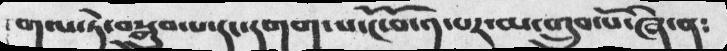གལ་ཏེ་བསྒྲུབ་པ་དང་དགག་པ་ངོ་བོ་༡་པར་མ་གྲུབ་པོ་ཞེ་ན༴
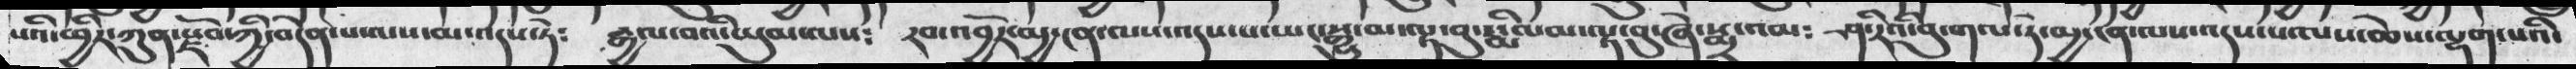པའི་ཕྱིར་ཀུན་སྫོབ་ཀྱི་བདེན་པ་ལས་མ་འདས་ཏེ༴ རྒྱལ་བའི་ཡུམ་ལས༴ རབ་འབྱོར་མྱ་ངན་ལས་འདས་པ་ཡང་སྒྱུ་མ་ལྟ་བུ་ཞེ་སྨྲར་འམ༴  ཤ་རིའི་བུ་གལ་ཏེ་མྱ་ངན་ལས་འདས་པ་ལས་ཆེས་ལྷག་པའི་
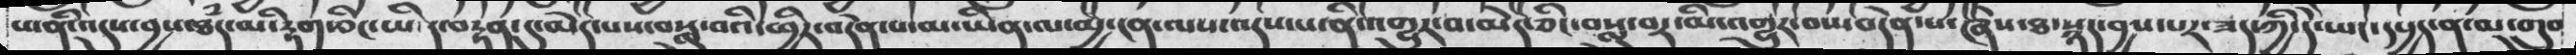པ་ནི་འདུས་བྱས་ཐཾད་མི་རྟག་ཅིང་ཡིད་བརྟན་དུ་མེད་པས་བསླུ་བའི་ཕྱིར་བདེན་པ་མ་ཡིན་ལ་མྱ་ངན་ལས་འདས་པ་ནི་འགྱུར་བ་མེད་ཅིང་བསླུ་བར་མི་འགྱུར་བས་བདེན་པ་ཞེས་ཐ་སྙད་བྱས་པར་ཟད་ཀྱི་དེ་ཡང་དཔྱད་ན་མ་གྲུབ
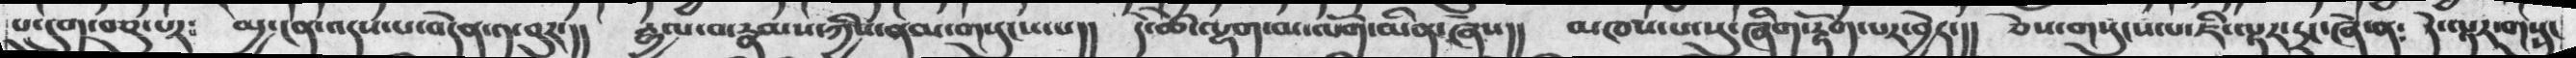པ་དྲུག་བཅུ་པར༴  མྱ་ངན་འདས་པ་བདེན་༡་བུར་།།  རྒྱལ་བ་རྣམས་ཀྱིས་ནམ་གསུངས་པ།།  དེ་ཚེ་ལྷག་མ་ལོག་མིན་ཞེས།།   མཁས་པ་སུ་ཞིག་རྟོག་པར་བྱེད་།།  ཅེས་གསུངས་པ་ཇི་ལྟར་དྲང་ཞེ་ན༴  དེ་ལྟར་གསུང
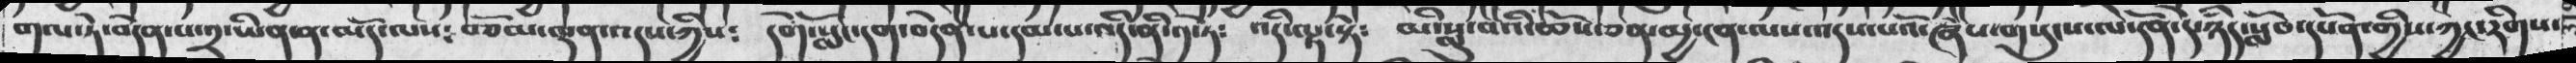གལ་ཏེ་བདེན་པ་༢་ཡིན་ན་མདོ་ལས༴    བཅོམ་ལྡན་འདས་ཀྱིས༴     དགེ་སློང་དག་བདེན་པ་དམ་པ་འདི་ནི་༡ཏེ༴  འདི་ལྟ་སྟེ༴   མི་སླུ་བའི་ཆོས་ཅན་མྱ་ངན་ལས་འདས་པའོ་ཞེས་གསུངས་ལ་དོན་དེ་ཉིད་སློབ་དཔོན་གྱིས་ཀྱང་རིགས་
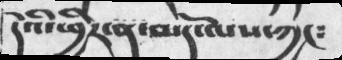དེའིི་ཕྱིར་ན་མདོ་ལས་ཀྱང༴
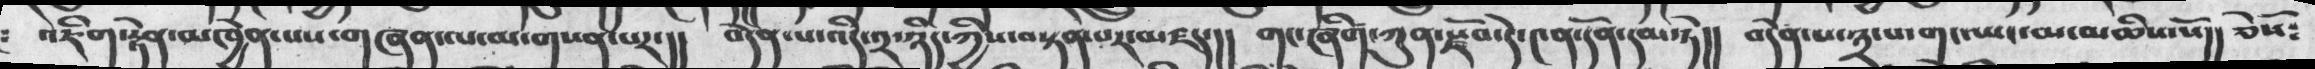འཇིག་རྟེན་མཁྱེན་པས་གཞན་ལ་མ་གསན་པར་།།  བདེན་པ་འདི་༢་ཉིད་ཀྱིས་བསྟན་པར་མཛད་།།    གང་ཞིག་ཀུན་སྫོབ་དེ་༤ན་དོན་དམ་ཏེ།།   བདེན་པ་༣་པ་གང་ཡང་མ་མཆིས་སོ།།  ཅེསོ༴
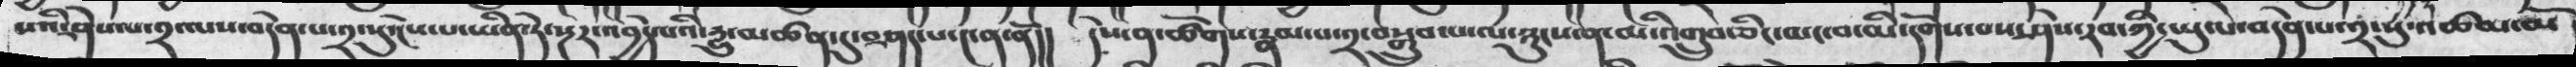པའི་ཤེས་པ་ལ་༢་ལས་བདེན་པ་༢་སུ་ངེས་པ་ཡིན་ཏེ་སྔར་འབྱེད་པའི་དྱུ་མཚན་དུ་བཤད་པ་༤ན་ནོ།།  དེ་ན་ཚོགས་རྣམ་པ་༢་བསྒྲུབ་པ་ལ་ཉུངས་ན་མི་འགྲུབ་ཅིང་མང་བ་མི་དགོས་པས་ཤེས་རབ་ཀྱི་ཡུལ་བདེན་པ་༢་སུ་འཚམ་མོ
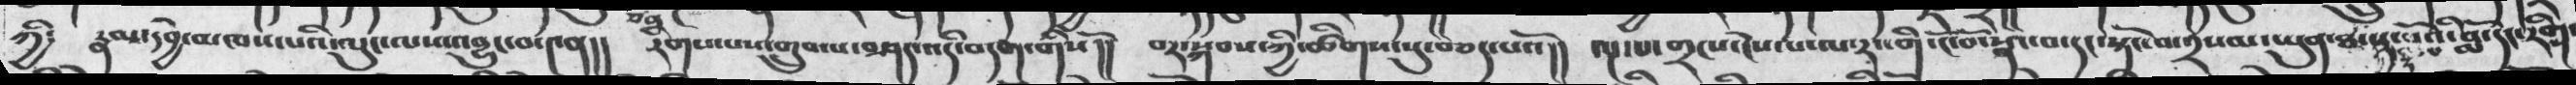ཀྱི༴  རྣམ་དབྱེ་མཁས་པའི་ལུང་ལས་འབྱུང་བ་༤ན།། རིགས་པས་འགྲུབ་པ་བཤད་འདི་བདག་གིསོ།།  བར་སྐབས་ཀྱི་ཚིགས་སུ་བཅད་པའོ།།  ལྔ་པ་གྲངས་ངེས་པ་ལ་རང་གི་ངོ་བོ་སྣང་བ་དང་སྟོང་བ་༢སམ་ཡུན་ཐ་སྡ་པོའི་བློ་དང་རིག་
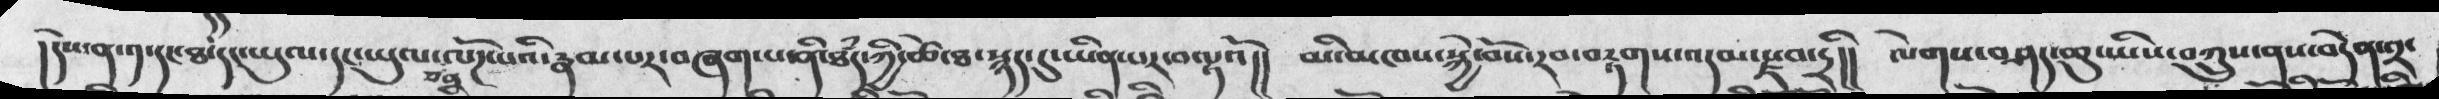།དེས་ན་༡་དང་ཐ་དང་ཡུལ་དང་ཡུལ་ཅན་ལོཌ་པའི་རྣམ་པར་བཞག་པ་ནི་ཐཾད་ཀྱི་ཚེ་ཐ་སྙད་དུ་ཡིན་པར་བལྟའོ།།   མི་མཁས་སྐྱེ་བོས་རབ་བརྟགས་འདམ་རྫབ་དྲི།།  ལེགས་བཤད་ཆུ་ཡིས་བཀྲུས་ནས་བདེན་༢་
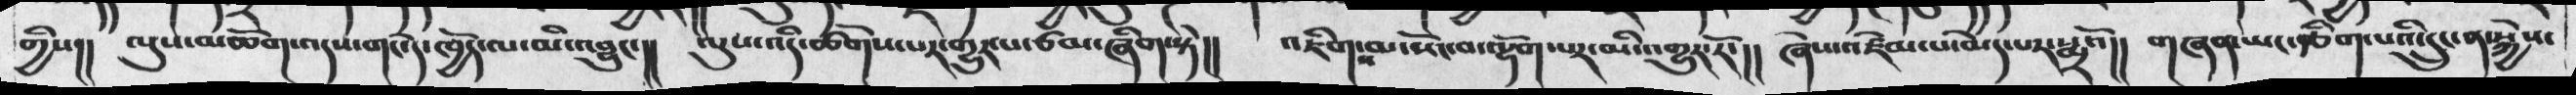གྱིས།།  ལུས་མཆོག་འདས་གང་དེ་ཁྱོད་ལ་མི་འབྱུང་།། ལུས་འདི་ཚོགས་པར་གྱུར་པ་ཙམ་ཞིག་ཏེ།།  འཇིག་མ་སོང་བ་ལྷོག་པར་མི་འགྱུར་རོ་།།  ཞེས་འཛེམ་པ་མེད་པར་སྨྲའོ།།  གཞན་ཡང་རྩིག་པའི་དྲུང་ན་སྐྱེས་
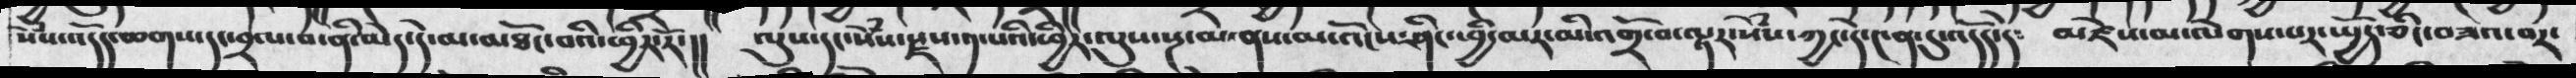སེཾས་འདོད་ཆགས་དང་བྲལ་བ་ནི་མེད་དེ་མ་མཐོང་བའི་ཕྱིར་རོ་།། ལུས་དང་སེཾས་སྫས་༡་པའི་ཕྱིར་ལུས་སྔ་མ་ནས་མ་འོངས་ཤིང་ཕྱི་མར་མི་འགྲོ་བ་ལྟར་སེཾས་ཀྱང་དེ་༤ན་དུ་འདོད་དེ་ མཛེས་མ་ལེགས་པར་སྤྱོད་ཅིང་བཟའ་བར་
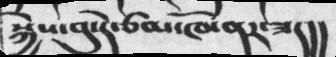སྐྱེས་བུ་དེ་ཙམ་ཁོ་ནར་ཟད།།
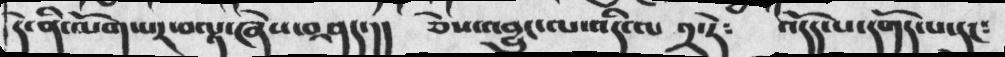དེ་ནི་ལོག་པར་བལྟ་ཞེས་བཤད་།། ཅེས་འབྱུང་ལ་འདི་ལ ༢་ཏེ༴ འདོད་པ་དགོད་པ་དང༴
